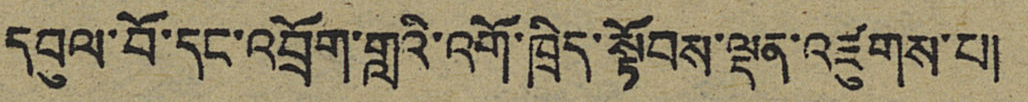དབུལ་བོ་དང་འབྲོག་གླའི་འགོ་ཁྲིད་སྟོབས་ལྡན་འཛུགས་པ།
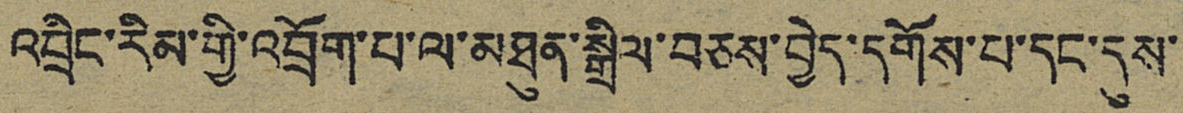འབྲིང་རིམ་གྱི་འབྲོག་པ་ལ་མཐུན་སྒྲིལ་བཅས་བྱེད་དགོས་པ་དང་དུས་
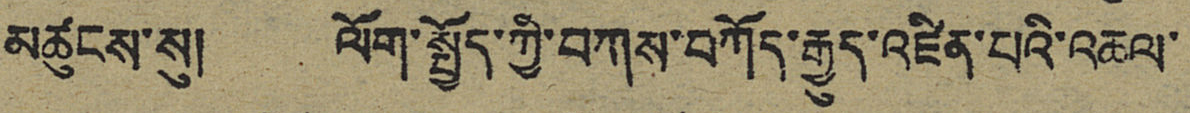མཚུངས་སུ། ལོག་སྤྱོད་ཀྱི་བཀས་བཀོད་རྒྱུད་འཛིན་པའི་འཆལ་
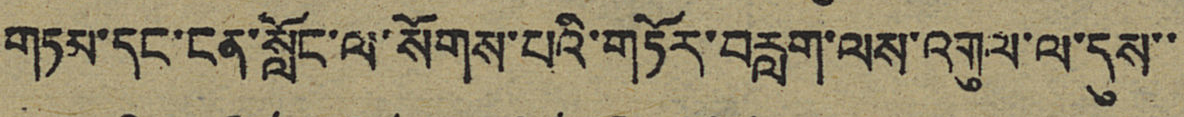གཏམ་དང་ངན་སློང་ལ་སོགས་པའི་གཏོར་བརླག་ལས་འགུལ་ལ་དུས་་
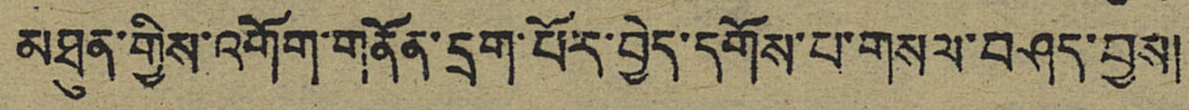མཐུན་གྱིས་འགོག་གནོན་དྲག་པོར་བྱེད་དགོས་པ་གསལ་བཤད་བྱས།
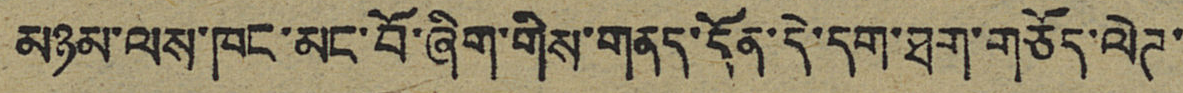མཉམ་ལས་ཁང་མང་བོ་ཞིག་གིས་གནད་དོན་དེ་དག་ཐག་གཅོད་ལེཊ་
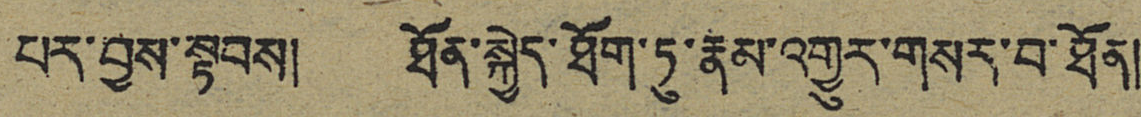པར་བྱས་སྟབས། ཐོན་སྐྱེད་ཐོག་ཏུ་རྣམ་འགྱུར་གསར་བ་ཐོན།
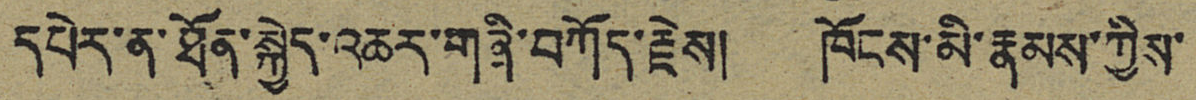དཔེར་ན་ཐོན་སྐྱེད་འཆར་གཞི་བཀོད་རྗེས། ཁོངས་མི་རྣམས་ཀྱིས་
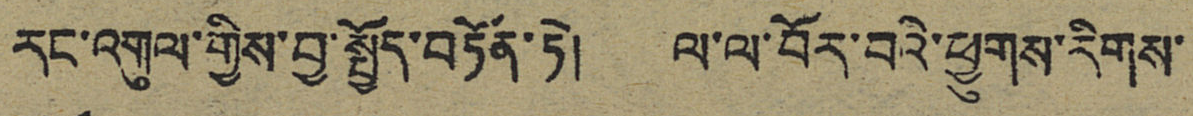རང་འགུལ་གྱིས་བྱ་སྤྱོད་བཏོན་ཏེ། ལ་ལ་བོར་བའི་ཕྱུགས་རིགས་
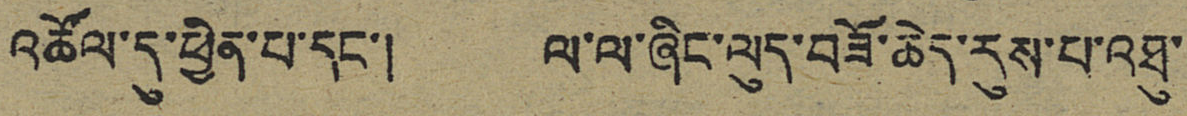འཚོལ་དུ་ཕྱིན་པ་དང་། ལ་ལ་ཞིང་ལུད་བཟོ་ཆེད་རུས་པ་འཐུ་
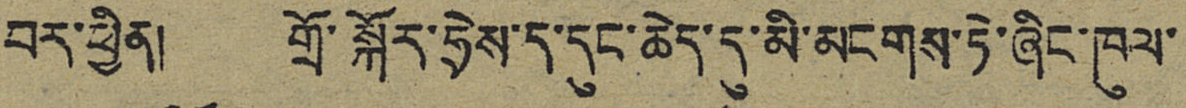བར་ཕྱིན། གྲོ་སྐོར་ཧྲེས་ད་དུང་ཆེད་དུ་མི་མངགས་ཏེ་ཞིང་ཁུལ་
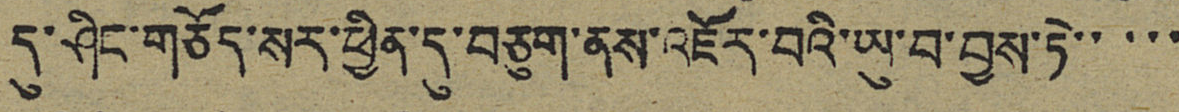དུ་ཤིང་གཅོད་སར་ཕྱིན་དུ་བཅུག་ནས་འཇོར་བའི་ཡུ་བ་བྱས་ཏེ་་་་་
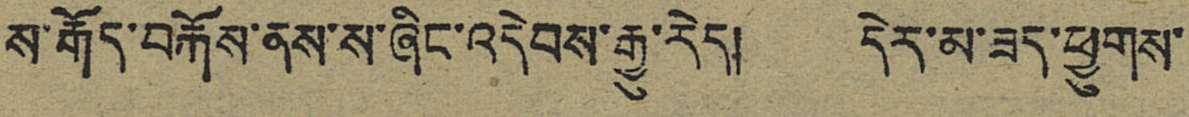ས་རྒོད་བརྐོས་ནས་ས་ཞིང་འདེབས་རྒྱུ་རེད། དེར་མ་ཟད་ཕྱུགས་
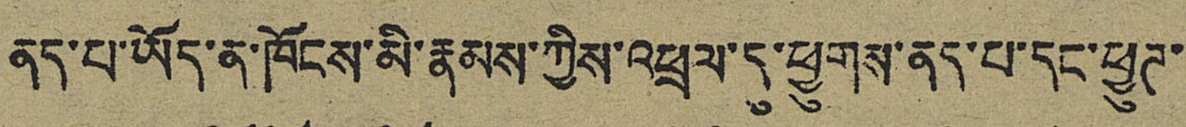ནད་པ་ཡོད་ན་ཁོངས་མི་རྣམས་ཀྱིས་འཕྲལ་དུ་ཕྱུགས་ནད་པ་དང་ཕྱུཊ་
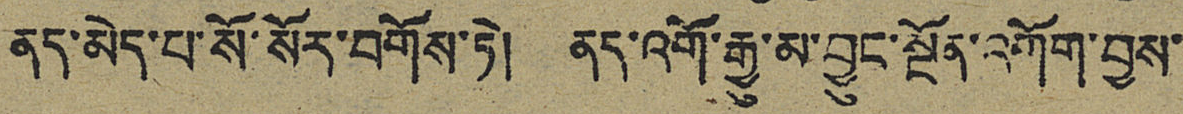ནད་མེད་པ་སོ་སོར་བགོས་ཏེ། ནད་འགོ་རྒྱུ་མ་བྱུང་སྔོན་འགོག་བྱས་
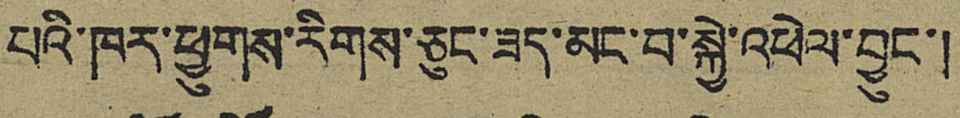པའི་ཁར་ཕྱུགས་རིགས་ཅུང་ཟད་མང་བ་སྐྱེ་འཕེལ་བྱུང་།
